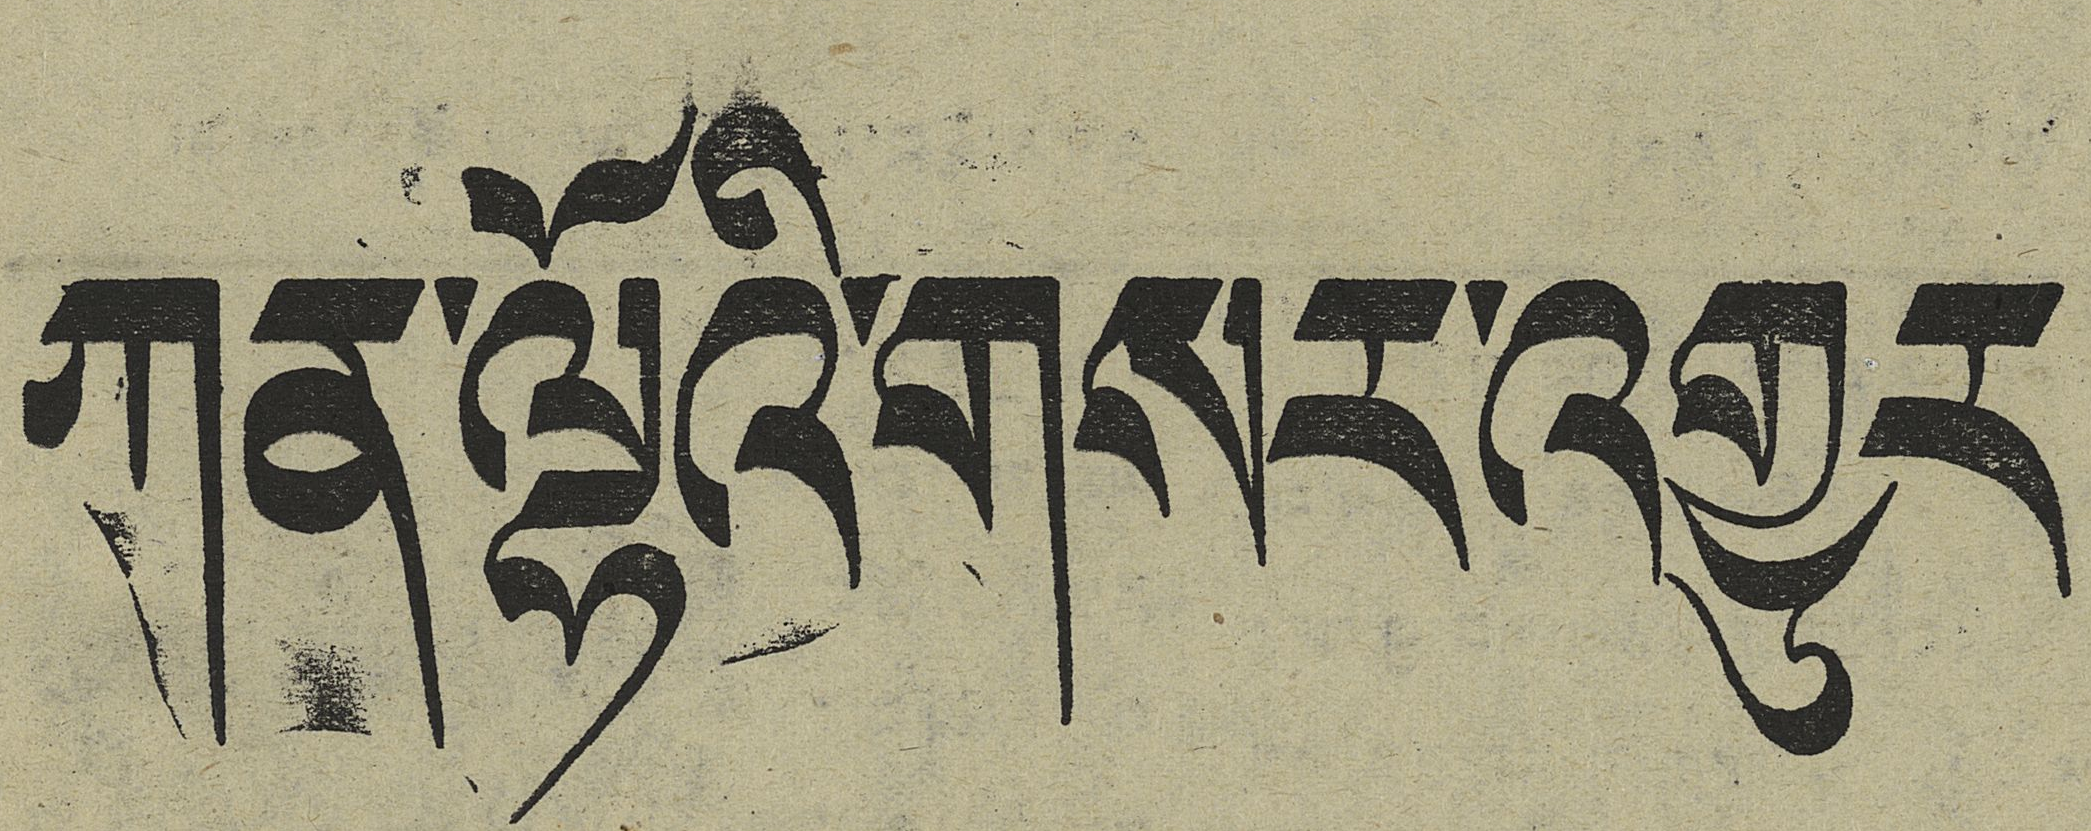ཀན་ལྷོའི་གསར་འགྱུར
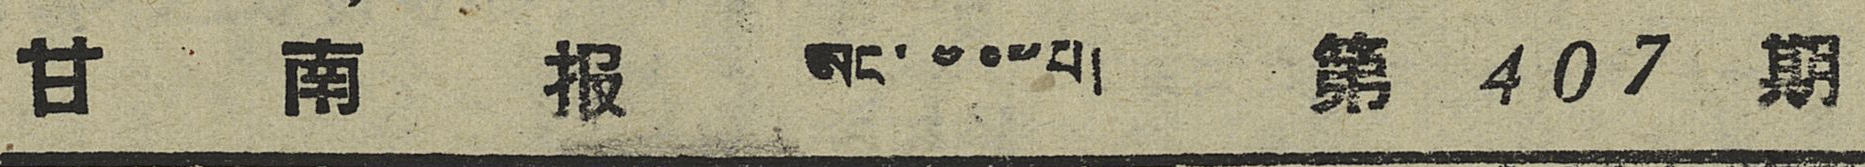甘 南 报 ཨང་ ༤༠༧ པ། 第 407 期
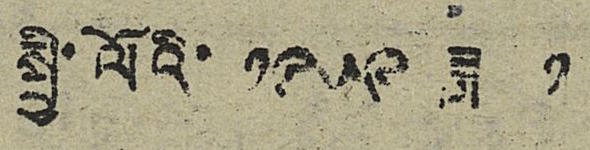སྤྱི་ལོའི་ ༡༩༥༩ ཟླ་ ༡
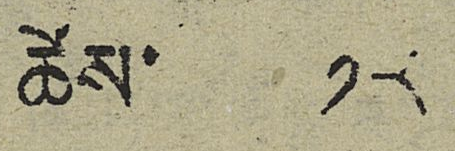ཚེས་ ༡༨
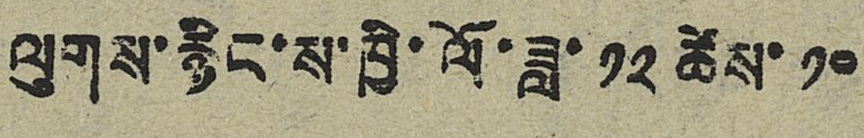ལུགས་རྙིང་ས་ཁྱི་ལོ་ཟླ་ ༡༢ ཚེས་ ༡༠
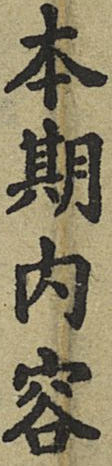本期內容
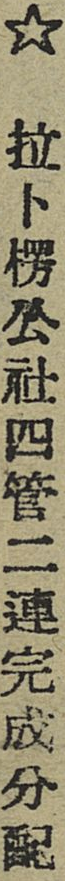☆ 拉卜楞公社四管二連完成分配
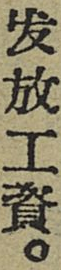发放工資。
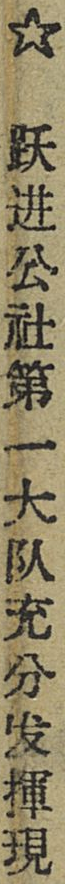☆ 跃进公社第一大队充分发揮現
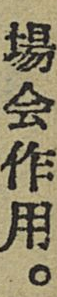場会作用。
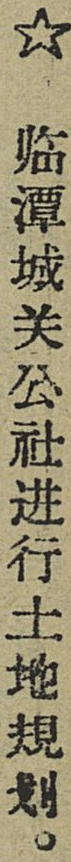☆ 临潭城关公社进行土地規划。
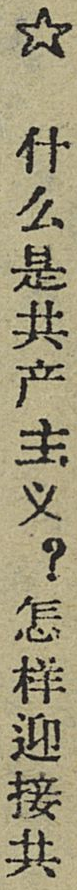☆ 什么是共产主义？怎样迎接共
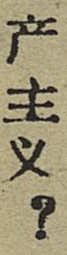产主义？
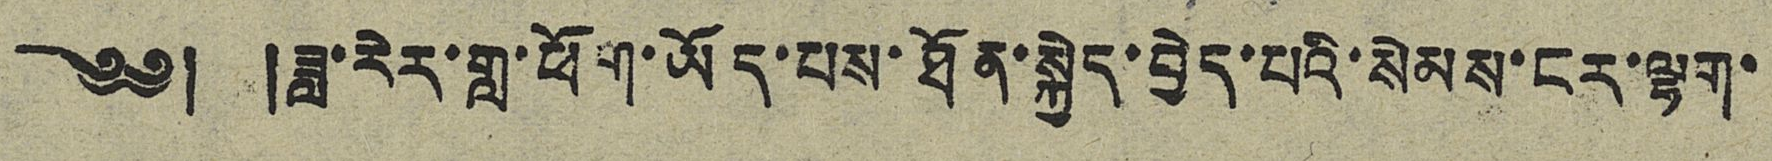༄༅། །ཟླ་རེར་གླ་ཕོག་ཡོད་པས་ཐོན་སྐྱེད་བྱེད་པའི་སེམས་ངར་ལྷག་
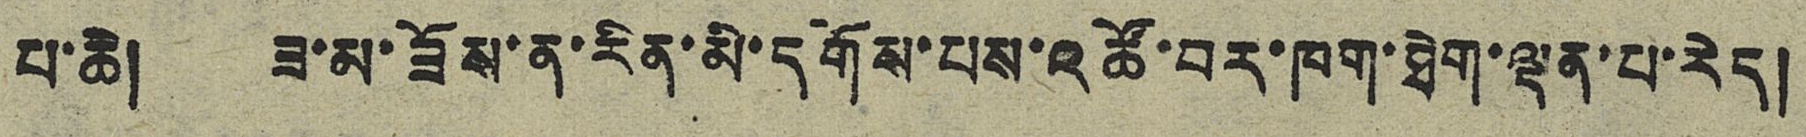པ་ཚེ། ཟ་མ་ཟོས་ན་རིན་མི་དགོས་པས་འཚོ་བར་ཁག་ཐིག་ལྡན་པ་རེད།
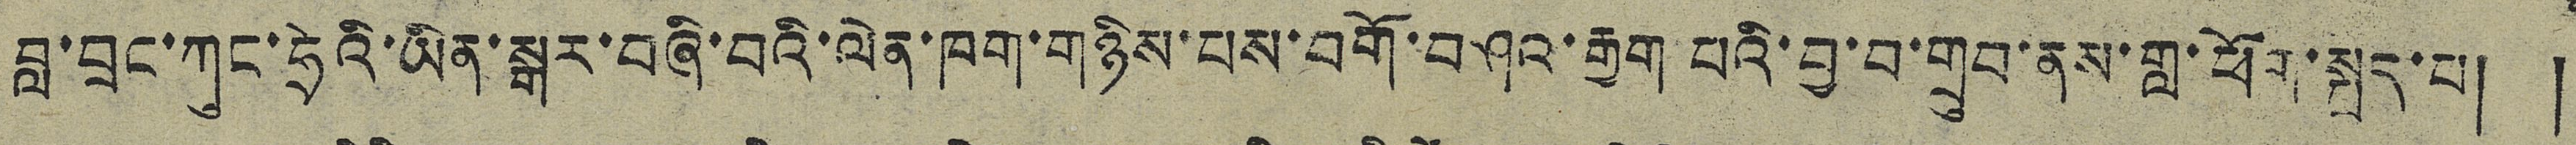བླ་བྲང་ཀུང་ཧྲེའི་ཡིན་སྒར་བཞི་བའི་ལེན་ཁག་གཉིས་པས་བགོ་བཤའ་རྒྱག པའི་བྱ་བ་གྲུབ་ནས་གླ་ཕོག་སྤྲད་པ། །
